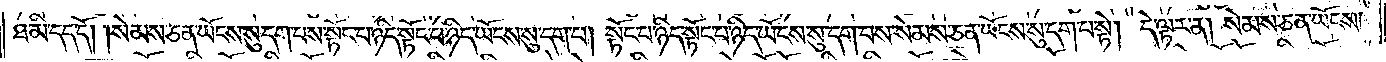ཐ་མི་དད་དོ། །སེམས་ཅན་ཡོངས་སུ་དག་པས་སྟོང་པ་ཉིད་སྟོང་པ་ཉིད་ཡོངས་སུ་དག་པ། སྟོང་པ་ཉིད་སྟོང་པ་ཉིད་ཡོངས་སུ་དག་པས་སེམས་ཅན་ཡོངས་སུ་དག་པ་སྟེ། དེ་ལྟར་ན། སེམས་ཅན་ཡོངས་
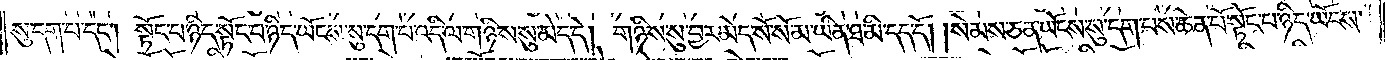སུ་དག་པ་དང༌། སྟོང་པ་ཉིད་སྟོང་པ་ཉིད་ཡོངས་སུ་དག་པ་འདི་ལ་གཉིས་སུ་མེད་དེ། གཉིས་སུ་བྱར་མེད་སོ་སོ་མ་ཡིན་ཐ་མི་དད་དོ། །སེམས་ཅན་ཡོངས་སུ་དག་པས་ཆེན་པོ་སྟོང་པ་ཉིད་ཡོངས་
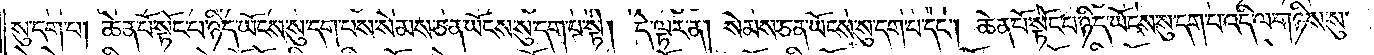སུ་དག་པ། ཆེན་པོ་སྟོང་པ་ཉིད་ཡོངས་སུ་དག་པས་སེམས་ཅན་ཡོངས་སུ་དག་པ་སྟེ། དེ་ལྟར་ན། སེམས་ཅན་ཡོངས་སུ་དག་པ་དང༌། ཆེན་པོ་སྟོང་པ་ཉིད་ཡོངས་སུ་དག་པ་འདི་ལ་གཉིས་སུ་
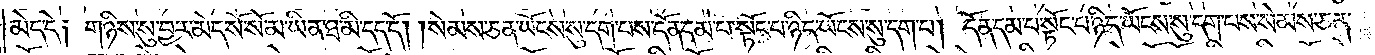མེད་དེ༑ གཉིས་སུ་བྱར་མེད་སོ་སོ་མ་ཡིན་ཐ་མི་དད་དོ། །སེམས་ཅན་ཡོངས་སུ་དག་པས་དོན་དམ་པ་སྟོང་པ་ཉིད་ཡོངས་སུ་དག་པ་དང༌། དོན་དམ་པ་སྟོང་པ་ཉིད་ཡོངས་སུ་དག་པས་སེམས་ཅན་
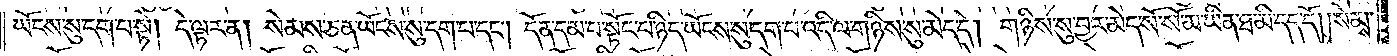ཡོངས་སུ་དག་པ་སྟེ། དེ་ལྟར་ན། སེམས་ཅན་ཡོངས་སུ་དག་པ་དང༌། དོན་དམ་པ་སྟོང་པ་ཉིད་ཡོངས་སུ་དག་པ་འདི་ལ་གཉིས་སུ་མེད་དེ། གཉིས་སུ་བྱར་མེད་སོ་སོ་མ་ཡིན་ཐ་མི་དད་དོ། །སེམས་
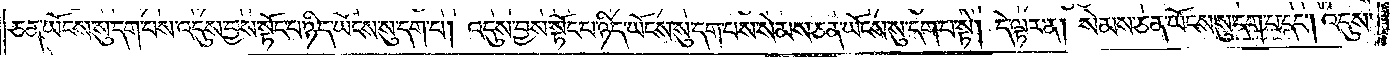ཅན་ཡོངས་སུ་དག་པས་འདུས་བྱས་སྟོང་པ་ཉིད་ཡོངས་སུ་དག་པ། འདུས་བྱས་སྟོང་པ་ཉིད་ཡོངས་སུ་དག་པས་སེམས་ཅན་ཡོངས་སུ་དག་པ་སྟེ། དེ་ལྟར་ན། སེམས་ཅན་ཡོངས་སུ་དག་པ་དང༌། འདུས་
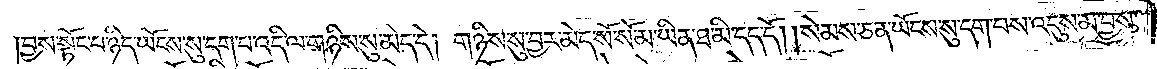བྱས་སྟོང་པ་ཉིད་ཡོངས་སུ་དག་པ་འདི་ལ་གཉིས་སུ་མེད་དེ། གཉིས་སུ་བྱར་མེད་སོ་སོ་མ་ཡིན་ཐ་མི་དད་དོ། །སེམས་ཅན་ཡོངས་སུ་དག་པས་འདུས་མ་བྱས་
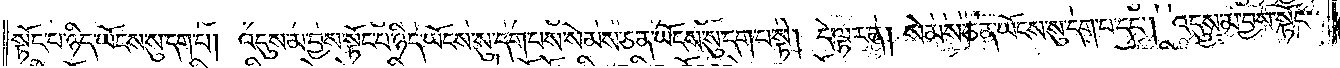སྟོང་པ་ཉིད་ཡོངས་སུ་དག་པ། འདུས་མ་བྱས་སྟོང་པ་ཉིད་ཡོངས་སུ་དག་པས་སེམས་ཅན་ཡོངས་སུ་དག་པ་སྟེ། དེ་ལྟར་ན། སེམས་ཅན་ཡོངས་སུ་དག་པ་དང༌། འདུས་མ་བྱས་སྟོང་
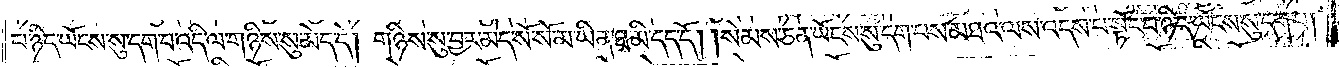པ་ཉིད་ཡོངས་སུ་དག་པ་འདི་ལ་གཉིས་སུ་མེད་དེ། གཉིས་སུ་བྱར་མེད་སོ་སོ་མ་ཡིན་ཐ་མི་དད་དོ། །སེམས་ཅན་ཡོངས་སུ་དག་པས་མཐའ་ལས་འདས་པ་སྟོང་པ་ཉིད་ཡོངས་སུ་དག་པ།
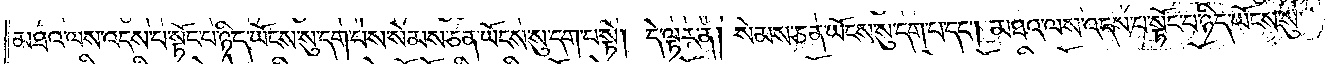མཐའ་ལས་འདས་པ་སྟོང་པ་ཉིད་ཡོངས་སུ་དག་པས་སེམས་ཅན་ཡོངས་སུ་དག་པ་སྟེ། དེ་ལྟར་ན། སེམས་ཅན་ཡོངས་སུ་དག་པ་དང༌། མཐའ་ལས་འདས་པ་སྟོང་པ་ཉིད་ཡོངས་སུ་
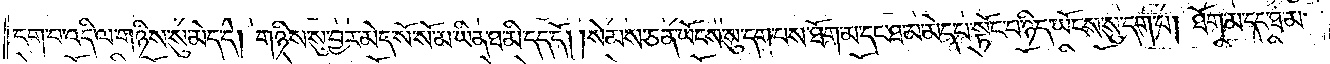དག་པ་འདི་ལ་གཉིས་སུ་མེད་དེ། གཉིས་སུ་བྱར་མེད་སོ་སོ་མ་ཡིན་ཐ་མི་དད་དོ། །སེམས་ཅན་ཡོངས་སུ་དག་པས་ཐོག་མ་དང་ཐ་མ་མེད་པ་སྟོང་པ་ཉིད་ཡོངས་སུ་དག་པ། ཐོག་མ་དང་ཐ་མ་
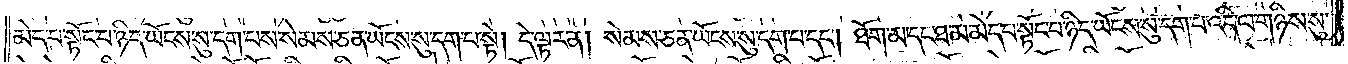མེད་པ་སྟོང་པ་ཉིད་ཡོངས་སུ་དག་པས་སེམས་ཅན་ཡོངས་སུ་དག་པ་སྟེ། དེ་ལྟར་ན། སེམས་ཅན་ཡོངས་སུ་དག་པ་དང༌། ཐོག་མ་དང་ཐ་མ་མེད་པ་སྟོང་པ་ཉིད་ཡོངས་སུ་དག་པ་འདི་ལ་གཉིས་སུ་
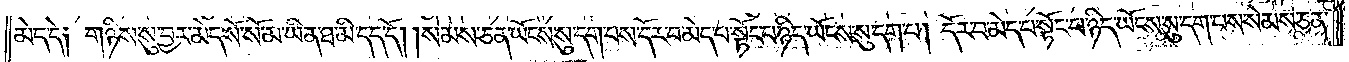མེད་དེ༑ གཉིས་སུ་བྱར་མེད་སོ་སོ་མ་ཡིན་ཐ་མི་དད་དོ། །སེམས་ཅན་ཡོངས་སུ་དག་པས་དོར་བ་མེད་པ་སྟོང་པ་ཉིད་ཡོངས་སུ་དག་པ། དོར་བ་མེད་པ་སྟོང་པ་ཉིད་ཡོངས་སུ་དག་པས་སེམས་ཅན་
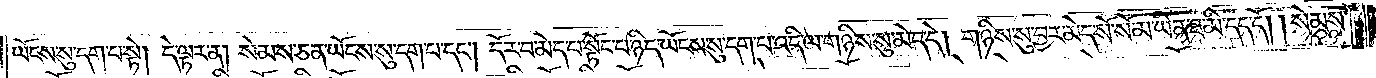ཡོངས་སུ་དག་པ་སྟེ། དེ་ལྟར་ན། སེམས་ཅན་ཡོངས་སུ་དག་པ་དང༌། དོར་བ་མེད་པ་སྟོང་པ་ཉིད་ཡོངས་སུ་དག་པ་འདི་ལ་གཉིས་སུ་མེད་དེ། གཉིས་སུ་བྱར་མེད་སོ་སོ་མ་ཡིན་ཐ་མི་དད་དོ། །སེམས་
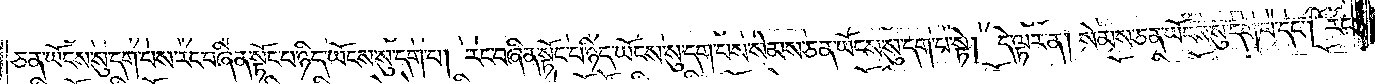ཅན་ཡོངས་སུ་དག་པས་རང་བཞིན་སྟོང་པ་ཉིད་ཡོངས་སུ་དག་པ། རང་བཞིན་སྟོང་པ་ཉིད་ཡོངས་སུ་དག་པས་སེམས་ཅན་ཡོངས་སུ་དག་པ་སྟེ། དེ་ལྟར་ན། སེམས་ཅན་ཡོངས་སུ་དག་པ་དང༌། རང་
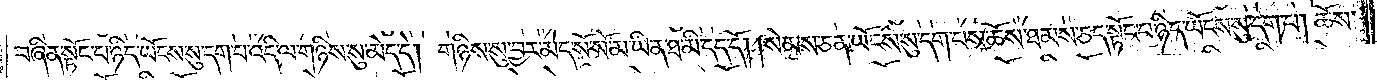བཞིན་སྟོང་པ་ཉིད་ཡོངས་སུ་དག་པ་འདི་ལ་གཉིས་སུ་མེད་དེ། གཉིས་སུ་བྱར་མེད་སོ་སོ་མ་ཡིན་ཐ་མི་དད་དོ། །སེམས་ཅན་ཡོངས་སུ་དག་པས་ཆོས་ཐམས་ཅད་སྟོང་པ་ཉིད་ཡོངས་སུ་དག་པ། ཆོས་
